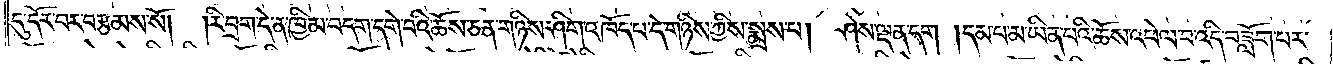དུ་དོར་བར་བརྩམས་སོ། །རི་བྲག་དེ་ན་ཁྱིམ་བདག་དགེ་བའི་ཆོས་ཅན་གཉིས་ཤིག་འཁོད་པ་དེ་གཉིས་ཀྱིས་སྨྲས་པ། ཤེས་ལྡན་དག །དམ་པ་མ་ཡིན་པའི་ཆོས་འཕེལ་བ་འདི་བཟློག་པར་
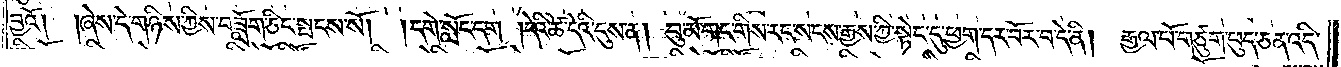བྱའོ། །ཞེས་དེ་གཉིས་ཀྱིས་བཟློག་ཅིང་སྤངས་སོ། །དགེ་སློང་དག །དེའི་ཚེ་དེའི་དུས་ན། བུ་མོ་གང་གིས་རང་སངས་རྒྱས་ཀྱི་སྟེང་དུ་ཕྱག་དར་བོར་བ་དེ་ནི། རྒྱལ་པོ་གཙུག་ཕུད་ཅན་འདི་
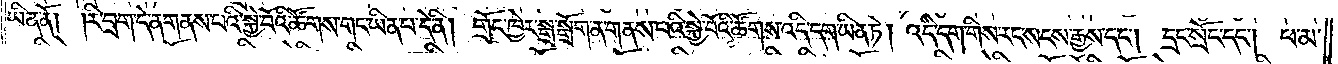ཡིན་ནོ། །རི་བྲག་དེ་ན་གནས་པའི་སྐྱེ་བོའི་ཚོགས་གང་ཡིན་པ་དེ་ནི། གྲོང་ཁྱེར་སྒྲ་སྒྲོག་ན་གནས་པའི་སྐྱེ་བོའི་ཚོགས་འདི་དག་ཡིན་ཏེ། འདི་དག་གིས་རང་སངས་རྒྱས་དང༌། དྲང་སྲོང་དང༌། ཕ་མ་
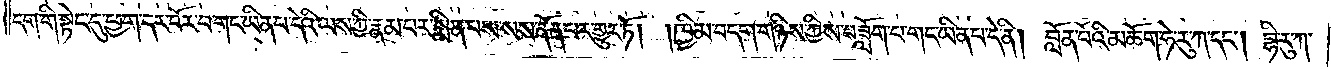དག་གི་སྟེང་དུ་ཕྱག་དར་བོར་བ་གང་ཡིན་པ་དེའི་ལས་ཀྱི་རྣམ་པར་སྨིན་པས་སས་ནོན་པར་གྱུར་ཏོ། །ཁྱིམ་བདག་གཉིས་ཀྱིས་བཟློག་པ་གང་ཡིན་པ་དེ་ནི། བློན་པོའི་མཆོག་ཧེ་རུ་ཀ་དང༌། བྷི་རུ་ཀ་
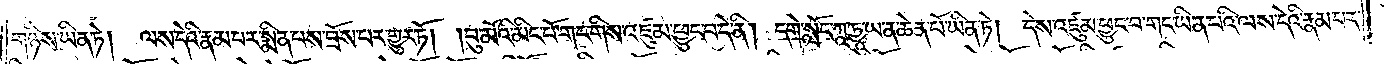གཉིས་ཡིན་ཏེ། ལས་དེའི་རྣམ་པར་སྨིན་པས་བྲོས་པར་གྱུར་ཏོ། །བུ་མོའི་མིང་པོ་གང་གིས་འཛུམ་ཕྱུང་བ་དེ་ནི། དགེ་སློང་ཀཱ་ཏྱཱ་ཡ་ན་ཆེན་པོ་ཡིན་ཏེ། དེས་འཛུམ་ཕྱུང་བ་གང་ཡིན་པའི་ལས་དེའི་རྣམ་པར་
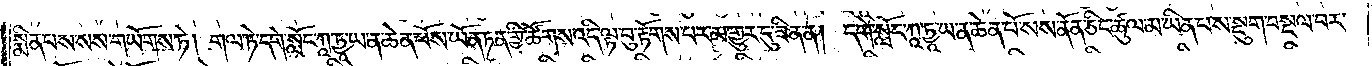སྨིན་པས་སས་གཡོགས་ཏེ། གལ་ཏེ་དགེ་སློང་ཀཱ་ཏྱཱ་ཡ་ན་ཆེན་པོས་ཡོན་ཏན་གྱི་ཚོགས་འདི་ལྟ་བུ་རྟོགས་པར་མ་གྱུར་དུ་ཟིན་ན། དགེ་སློང་ཀཱ་ཏྱཱ་ཡ་ན་ཆེན་པོ་སས་ནོན་ཅིང་ཚུལ་མ་ཡིན་པས་སྡུག་བསྔལ་བར་
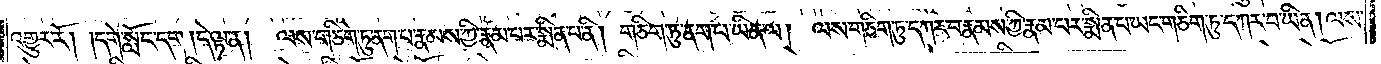འགྱུར་རོ། །དགེ་སློང་དག །དེ་ལྟ་ན། ལས་གཅིག་ཏུ་ནག་པ་རྣམས་ཀྱི་རྣམ་པར་སྨིན་པ་ནི། གཅིག་ཏུ་ནག་པ་ཡིན་ལ། ལས་གཅིག་ཏུ་དཀར་བ་རྣམས་ཀྱི་རྣམ་པར་སྨིན་པ་ཡང་གཅིག་ཏུ་དཀར་བ་ཡིན། ལས་
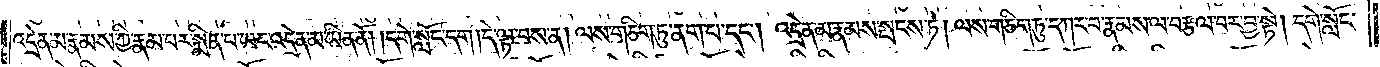འདྲེན་མ་རྣམས་ཀྱི་རྣམ་པར་སྨིན་པ་ཡང་འདྲེན་མ་ཡིན་ནོ། །དགེ་སློང་དག །དེ་ལྟ་བས་ན། ལས་གཅིག་ཏུ་ནག་པ་དང༌། འདྲེན་མ་རྣམས་སྤངས་ཏེ། ལས་གཅིག་ཏུ་དཀར་བ་རྣམས་ལ་བརྩལ་བར་བྱ་སྟེ། དགེ་སློང་
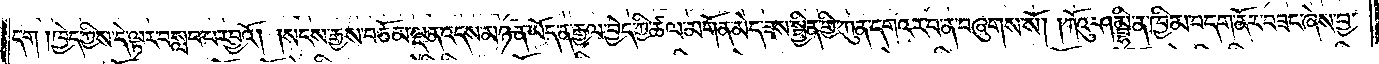དག །ཁྱེད་ཀྱིས་དེ་ལྟར་བསླབ་པར་བྱའོ། །སངས་རྒྱས་བཅོམ་ལྡན་འདས་མཉན་ཡོད་ན་རྒྱལ་བྱེད་ཀྱི་ཚལ་མགོན་མེད་ཟས་སྦྱིན་གྱི་ཀུན་དགའ་ར་བ་ན་བཞུགས་སོ། །ཀོའུ་ཤམྦྷི་ན་ཁྱིམ་བདག་ནོར་བཟང་ཞེས་བྱ་
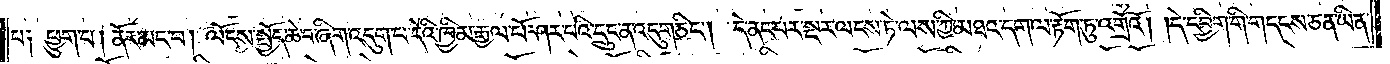བ༑ ཕྱུག་པ། ནོར་མང་བ། ལོངས་སྤྱོད་ཆེ་བ་ཞིག་འདུག་པ་དེའི་ཁྱིམ་རྒྱལ་པོ་ཤར་པའི་དྲུང་ན་འདུག་ཅིང༌། དེ་ནང་པར་སྔར་ལངས་ཏེ་ལས་ཀྱི་མཐའ་དག་ལ་རྟོག་ཏུ་འགྲོའོ། །དེ་དབྱིག་གི་གདངས་ཅན་ཡིན་
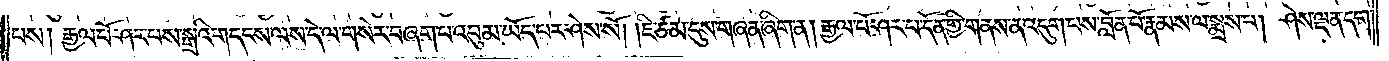པས། རྒྱལ་པོ་ཤར་པས་སྒྲའི་གདངས་ལས་དེ་ལ་གསེར་བཞག་པ་འབུམ་ཡོད་པར་ཤེས་སོ། །ཇི་ཙམ་དུས་གཞན་ཞིག་ན། རྒྱལ་པོ་ཤར་པ་དོན་གྱི་གནས་ན་འདུག་པས་བློན་པོ་རྣམས་ལ་སྨྲས་པ། ཤེས་ལྡན་དག་
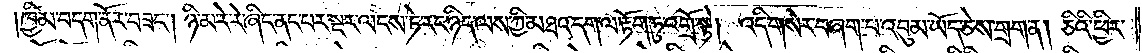ཁྱིམ་བདག་ནོར་བཟང༌། ཉི་མ་རེ་རེ་ཞིང་ནང་པར་སྔར་ལངས་ཏེ་རང་ཉིད་ལས་ཀྱི་མཐའ་དག་ལ་རྟོག་ཏུ་འགྲོ་སྟེ། འདི་གསེར་བཞག་པ་འབུམ་ཡོད་ཅེས་གྲག་ན། ཅིའི་ཕྱིར་
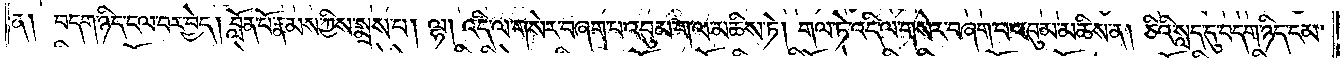ན། བདག་ཉིད་ངལ་བར་བྱེད། བློན་པོ་རྣམས་ཀྱིས་སྨྲས་པ། ལྷ། འདི་ལ་གསེར་བཞག་པ་འབུམ་ག་ལ་མཆིས་ཏེ། གལ་ཏེ་འདི་ལ་གསེར་བཞག་པ་འབུམ་མཆིས་ན། ཅིའི་སླད་དུ་བདག་ཉིད་དམ་
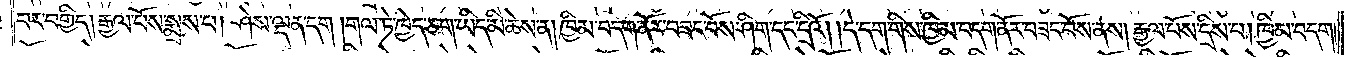བར་བགྱིད། རྒྱལ་པོས་སྨྲས་པ། ཤེས་ལྡན་དག །གལ་ཏེ་ཁྱེད་ཅག་ཡིད་མི་ཆེས་ན། ཁྱིམ་བདག་ནོར་བཟང་པོས་ཤིག་དང་དྲིའོ། །དེ་དག་གིས་ཁྱིམ་བདག་ནོར་བཟང་པོས་ནས། རྒྱལ་པོས་དྲིས་པ། ཁྱིམ་བདག་
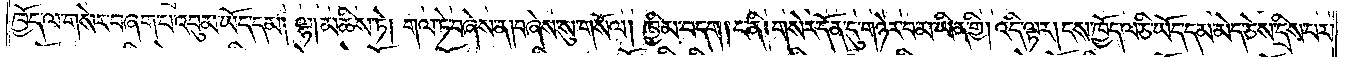ཁྱོད་ལ་གསེར་བཞག་པ་འབུམ་ཡོད་དམ། ལྷ། མཆིས་ཏེ། གལ་ཏེ་བཞེས་ན། བཞེས་སུ་གསོལ། ཁྱིམ་བདག། ང་ནི། གསེར་དོན་དུ་གཉེར་བ་མ་ཡིན་གྱི། འདི་ལྟར། ངས་ཁྱོད་ལ་ཅི་ཡོད་དམ་མེད་ཅེས་དྲིས་པར་
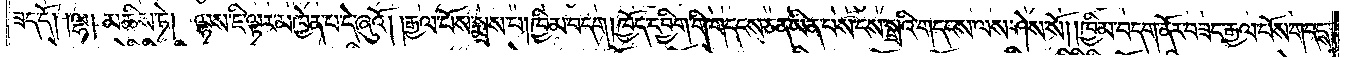ཟད་དོ། །ལྷ། མཆིས་ཏེ། ལྷས་ཇི་ལྟར་མཁྱེན་པ་དེ་ཞུའོ། །རྒྱལ་པོས་སྨྲས་པ། ཁྱིམ་བདག །ཁྱོད་དབྱིག་གི་གདངས་ཅན་ཡིན་པས་ངས་སྒྲའི་གདངས་ལས་ཤེས་སོ། །ཁྱིམ་བདག་ནོར་བཟང་རྒྱལ་པོས་གདངས་
